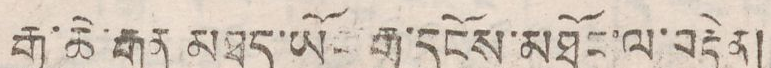རྒྱ་ཆེ་རྒྱུན མཐུན་ཡོང་རྒྱུ་དངོས་མཐོང་ལ་བརྟེན།
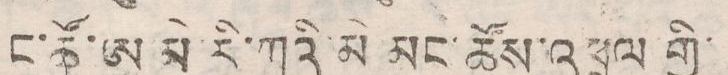ང་ཚོ་ཨ མི་རི་ཀའི་མི མང་ཚོས་འཕྲལ གྱི་
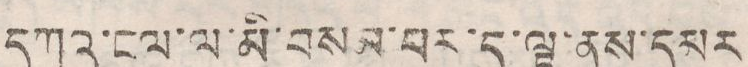དཀའ་ངལ་ལ་མི་བསམ་པར་ད་ལྟ་ནས་དམར
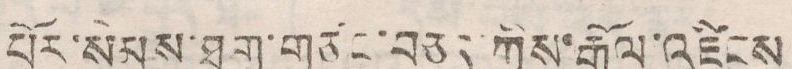པོར་སེམས་ཐག་གཙང་བཅད་ཀྱིས་རྒོལ་འཛིངས
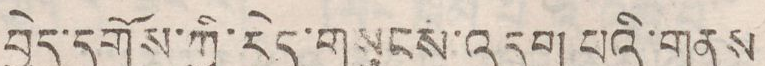བྱེད་དགོས་ཀྱི་རེད་གསུངས་འདུག་པའི་གནས
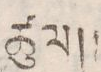ཚུལ།།
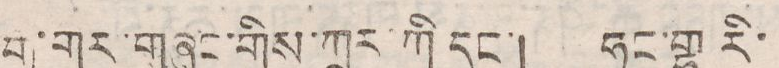རྒྱ་གར་གཞུང་གིས་ཀྲར་ཀི དང་། ཧང་གྷ རི་
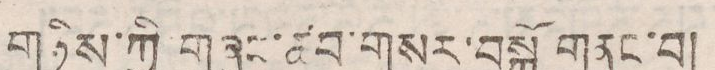གཉིས་ཀྱི གཞུང་ཚབ་གསར་བསྐོ གནང་བ།
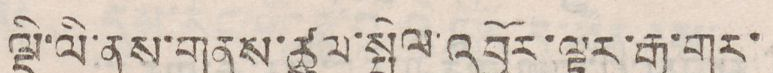ལྡི་ལི་ནས་གནས་ཚུལ་སྤེལ་འབྱོར་ལྟར་རྒྱ་གར་
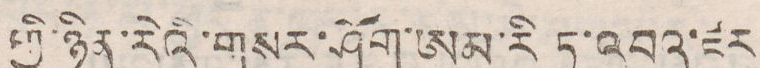གྱི་ཉིན་རེའི་གསར་ཤོག་ཨམ་རི ཏ་འབའ་ཛར
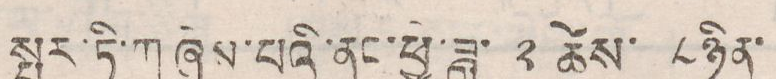སྤར་ཏི་ཀ ཞེས་པའི་ནང་ཕྱི་ཟླ་ ༢ ཚེས་ ༨ ཉིན་
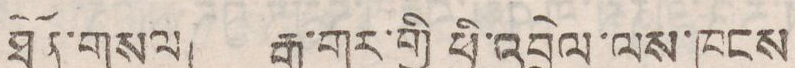ཐོན་གསལ། རྒྱ་གར་གྱི ཕྱི་འབྲེལ་ལས་ཁུངས
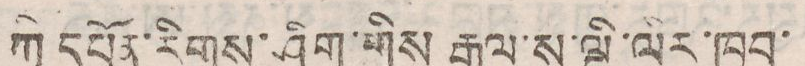ཀྱི དཔོན་རིགས་ཤིག་གིས རྒྱལ་ས་ལྡི་ལིར་ཁྱབ་
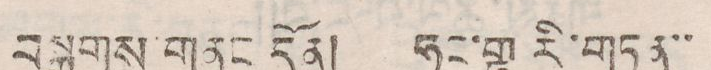བསྒྲགས་གནང དོན། ཧང་གྷ རི་གཏན་་
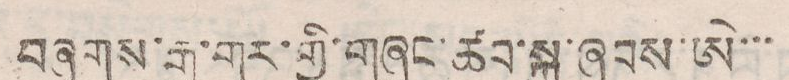བཞུགས་རྒྱ་གར་གྱི་གཞུང་ཚབ་སྐུ་ཞབས་ཨེ་་་
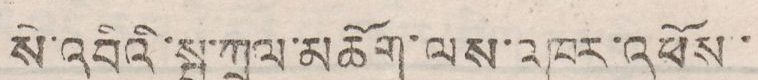སེ་འབིའི་སྤ་ཀྲལ་མཆོག་ལས་འཁུར་འཕོས་
